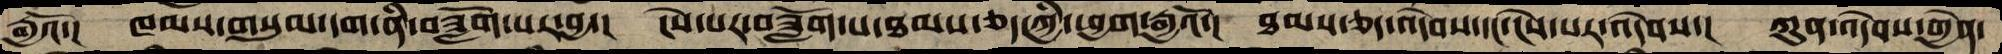རྒྱའོ་།  ཁམས་གསུམ་དག་ནི་བཟློག་པར་བྱ་།  ངེས་པར་བཟློག་པ་ཐམས་ཅད་ཀྱི་ཕྱག་རྒྱའོ་། ཐམས་ཅད་འདེབས་དང་ངེས་པར་འདེབས་།  ཀུན་འདེབས་གྱེན་
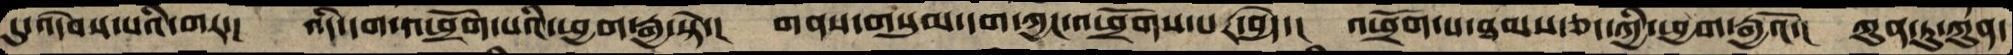དུ་འདེབས་པའི་གར་།  འདི་དག་འཕྲོག་པའི་ཕྱག་རྒྱ་སྟེ་།  གནས་གསུམ་དག་ཀྱང་འཕྲོགས་པར་བྱེད་།  འཕྲོག་པ་ཐམས་ཅད་ཀྱི་ཕྱག་རྒྱའོ་།  ཀུན་ཏུ་ཀུན་
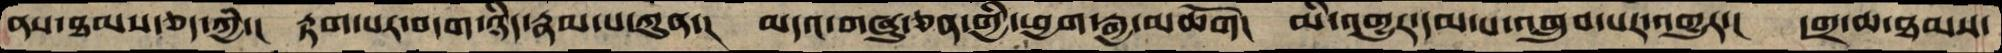ནས་ཐམས་ཅད་ཀྱི་།  རྟག་པར་བདག་ཉིད་རྣམ་པ་ཀུན་།  མདའ་གཞུ་ཅན་གྱི་ཕྱག་རྒྱ་མཆོག།  མི་འགྱུར་དམ་པ་འགྲུབ་པར་འགྱུར་།  དགྲ་མ་ཐམས་
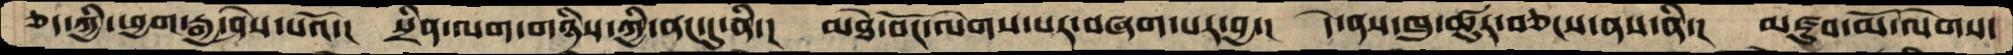ཅད་ཀྱི་ཕྱག་རྒྱ་ཤེས་པའོ་།  སྲིན་ལག་གཉིས་ཀྱི་ནང་དུ་ནི་།  མཐེ་བོང་ལེགས་པར་བཞག་པར་བྱ་།  དེ་ནས་ཁུ་ཚུར་བཅངས་ནས་ནི་།  མཛུབ་མོ་ལེགས་
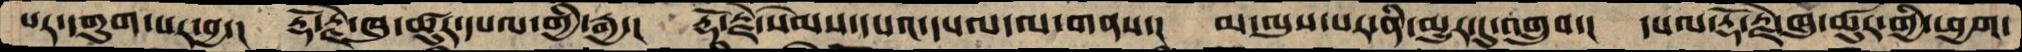པར་དགུག་པར་བྱ་།  རྡོ་རྗེ་ཁུ་ཚུར་དཔལ་གྱི་རྒྱ་།  རྡོ་རྗེ་སེམས་དཔའ་དཔལ་ལ་གནས་།  མ་ལུས་པར་ནི་མྱུར་དུ་འགྲུབ་།  དཔལ་རྡོ་རྗེ་ཁུ་ཚུར་གྱི་ཕྱག་
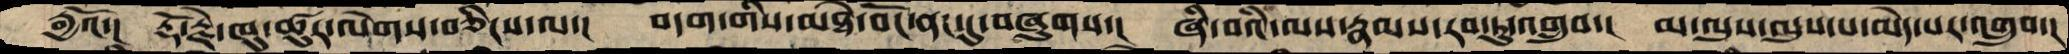རྒྱའོ་།  རྡོ་རྗེ་ཁུ་ཚུར་ལེགས་བཅིངས་ལ་།  བདག་གིས་མཐེ་བོང་ནང་དུ་བཞུགས་།  ཞི་བའི་ལས་རྣམས་རབ་ཏུ་འགྲུབ་།  མ་ལུས་ལུས་པ་མེད་པར་འགྲུབ་།
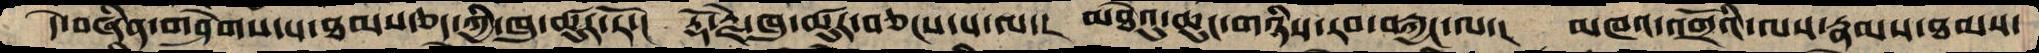དེ་བཞིན་གཤེགས་པ་ཐམས་ཅད་ཀྱི་ཁུ་ཚུར་རོ་།  རྡོ་རྗེ་ཁུ་ཚུར་བཅངས་པ་ལ་།  མཐེའུ་ཆུང་གཉིས་རབ་བརྐྱང་ལ་།  མཁའ་འགྲོའི་ལས་རྣམ་ཐམས་
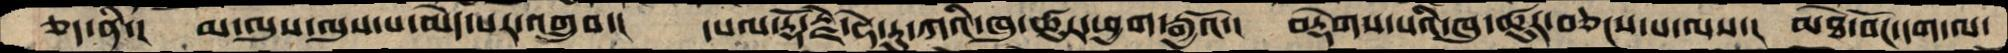ཅད་ནི་།  མ་ལུས་ལུས་པ་མེད་པར་འགྲུབ་།  དཔལ་རྡོ་རྗེ་ཧེ་རུ་ཀའི་ཁུ་ཚུར་ཕྱག་རྒྱའོ་།  བརྡེགས་པའི་ཁུ་ཚུར་བཅངས་པ་ལས་།  མཐེ་བོང་དག་ལ
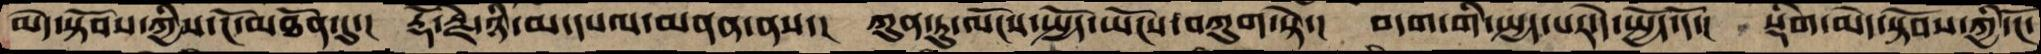མེད་སྟོབས་ཀྱིས་ངོ་མཐོན་དུ་།  རྡོ་རྗེ་ཉི་མ་དཔལ་མནན་ནས་།   ཀུན་ཏུ་ལོངས་སྤྱོད་ཡོངས་བཀུག་སྟེ་།  བདག་གི་སྤྱད་པར་དེ་སྤྱོད་དོ་།  སྡིག་མེད་སྟོབས་ཀྱི་ངོ་
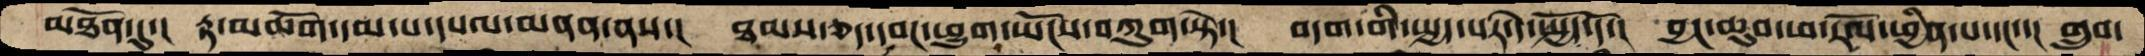མཐོན་དུ་།  རྟ་མཆོག་དམ་པ་དཔལ་མནན་ནས་།  ཐམས་ཅད་དབང་ཕྱུག་ཡོངས་བཀུག་སྟེ་།  བདག་གི་སྤྱད་པར་དེ་སྤྱོད་དོ་།  བྱང་ཆུབ་ཕ་རོལ་ཕྱིན་པ་དང་་།  གྲུབ་
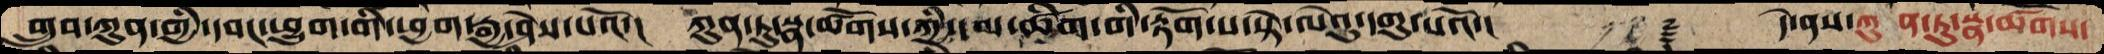གྲུབ་ཀུན་གྱི་དབང་ཕྱུག་གི་ཕྱག་རྒྱ་ཤེས་པའོ་།  ཀུན་ཏུ་སྣ་ཚོགས་ཀྱི་ཚིག་གི་རྟོག་པ་སྟེ་ལེའུ་དགུ་པའོ་།   ࿑   དེ་ནས་ཀུན་ཏུ་སྣ་ཚོགས་
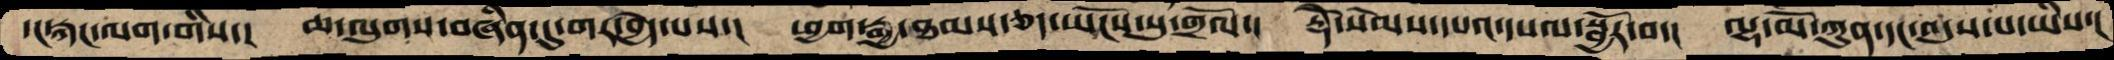དང་རྐང་ལག་གིས་།  ཆ་ལུགས་བཞིན་དུ་གར་བྱེད་པས་།  ཕྱག་རྒྱ་ཐམས་ཅད་ཡོངས་སུ་གྲོལ་།  རྡོེ་སེམས་དཔའ་དཔལ་སྦྱོར་བ་།  ལྷ་མོ་ཀུན་དང་འདུས་པ་ཡིས་།
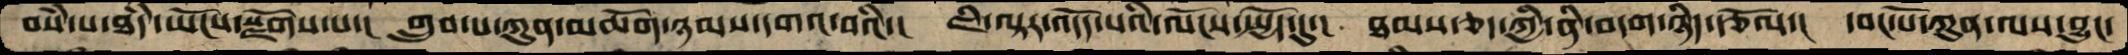བསཾ་པ་ཐདཾ་ཡོངས་སྫོགས་པ་།  གྲུབ་པ་ཀུན་མཆོག་ཉམས་དགའ་བའི་།  ཇི་ལྟར་འདོད་པའི་ལོངས་སྤྱོད་དུ་།  ཐམས་ཅད་ཀྱི་ནི་བདག་ཉིད་རྩོལ་།  དབང་པོ་ཀུན་ལས་བྱུང་
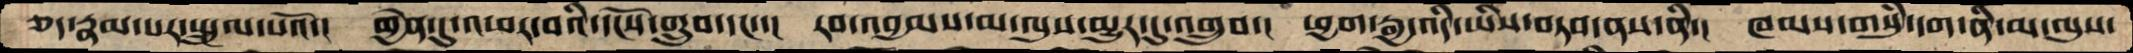ཅད་རྣམ་པར་སྤྲུལ་པའོ་།  གྱེན་དུ་འབར་བའི་དངོས་གྲུབ་དང་་།  རབ་འབྱམས་མ་ལུས་མྱུར་དུ་འགྲུབ་།  ཕྱག་རྒྱ་འདི་ཡིས་བཏབ་ནས་ནི་།  ཁམས་གསུཾ་དག་ནི་མ་ལུས་
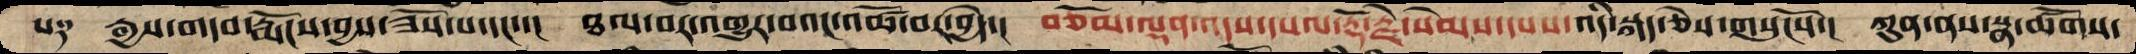པ༑  རྒྱས་གདབ་རྨོངས་བྱས་ཟོས་པ་དང་།  ཐལ་བར་འགྱུར་བའང་འཚོ་བར་བྱེད་།  བཅོམ་ལྡན་འདས་དཔལ་རྡོ་རྗེ་སེམས་དཔས་འདི་སྐད་ཅེས་གསུངསོ་།  ཀུན་ནས་སྣ་ཚོགས་
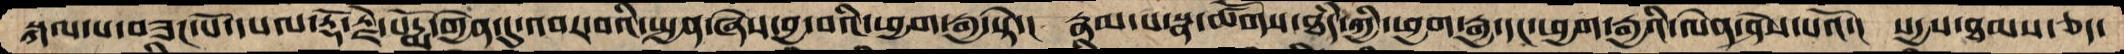སྐལ་པ་བཟང་པོ་དཔལ་རྡོ་རྗེ་པདྨོ་གྱེན་དུ་འབར་བའི་སྤྱན་ཞེས་བྱ་བའི་ཕྱག་རྒྱ་སྟེ་།  རྣམ་པ་སྣ་ཚོགས་ཐཾད་ཀྱི་ཕྱག་རྒྱ་དང་ཕྱག་རྒྱའི་ལེན་ཤེས་པའོ་།  སདྱས་ཐམས་ཅད་
